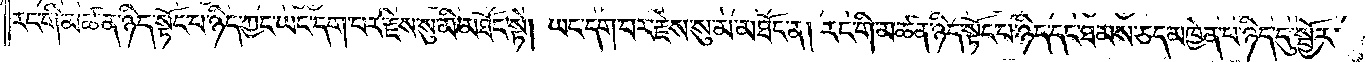རང་གི་མཚན་ཉིད་སྟོང་པ་ཉིད་ཀྱང་ཡང་དག་པར་རྗེས་སུ་མི་མཐོང་སྟེ། ཡང་དག་པར་རྗེས་སུ་མ་མཐོང་ན། རང་གི་མཚན་ཉིད་སྟོང་པ་ཉིད་དང་ཐམས་ཅད་མཁྱེན་པ་ཉིད་དུ་སྦྱོར་
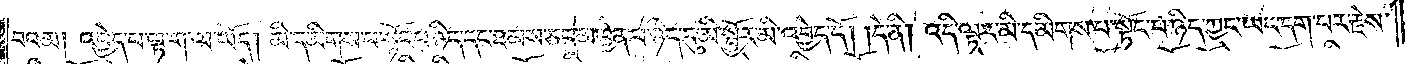བའམ། འབྱེད་པ་ལྟ་ག་ལ་ཡོད། མི་དམིགས་པ་སྟོང་པ་ཉིད་དང་ཐམས་ཅད་མཁྱེན་པ་ཉིད་དུ་མི་སྦྱོར་མི་འབྱེད་དོ། །དེ་ནི། འདི་ལྟར་མི་དམིགས་པ་སྟོང་པ་ཉིད་ཀྱང་ཡང་དག་པར་རྗེས་
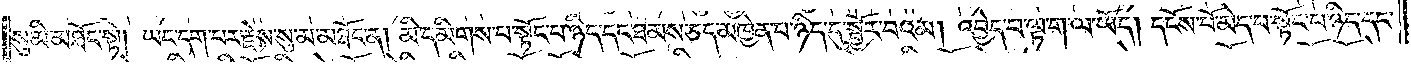སུ་མི་མཐོང་སྟེ། ཡང་དག་པར་རྗེས་སུ་མ་མཐོང་ན། མི་དམིགས་པ་སྟོང་པ་ཉིད་དང་ཐམས་ཅད་མཁྱེན་པ་ཉིད་དུ་སྦྱོར་བའམ། འབྱེད་པ་ལྟ་ག་ལ་ཡོད། དངོས་པོ་མེད་པ་སྟོང་པ་ཉིད་དང་
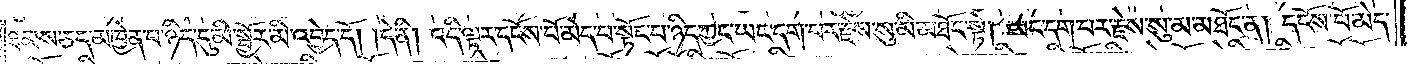ཐམས་ཅད་མཁྱེན་པ་ཉིད་དུ་མི་སྦྱོར་མི་འབྱེད་དོ། །དེ་ནི། འདི་ལྟར་དངོས་པོ་མེད་པ་སྟོང་པ་ཉིད་ཀྱང་ཡང་དག་པར་རྗེས་སུ་མི་མཐོང་སྟེ། ཡང་དག་པར་རྗེས་སུ་མ་མཐོང་ན། དངོས་པོ་མེད་
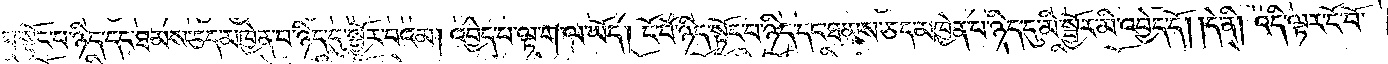པ་སྟོང་པ་ཉིད་དང་ཐམས་ཅད་མཁྱེན་པ་ཉིད་དུ་སྦྱོར་བའམ། འབྱེད་པ་ལྟ་ག་ལ་ཡོད། ངོ་བོ་ཉིད་སྟོང་པ་ཉིད་དང་ཐམས་ཅད་མཁྱེན་པ་ཉིད་དུ་མི་སྦྱོར་མི་འབྱེད་དོ། །དེ་ནི། འདི་ལྟར་ངོ་བོ་
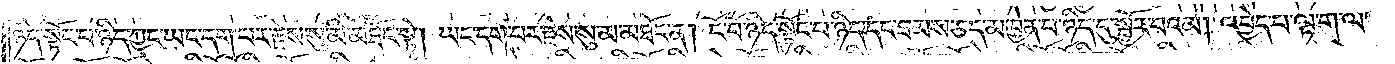ཉིད་སྟོང་པ་ཉིད་ཀྱང་ཡང་དག་པར་རྗེས་སུ་མི་མཐོང་སྟེ། ཡང་དག་པར་རྗེས་སུ་མ་མཐོང་ན། ངོ་བོ་ཉིད་སྟོང་པ་ཉིད་དང་ཐམས་ཅད་མཁྱེན་པ་ཉིད་དུ་སྦྱོར་བའམ། འབྱེད་པ་ལྟ་ག་ལ་
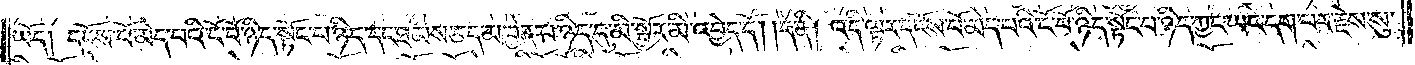ཡོད། དངོས་པོ་མེད་པའི་ངོ་བོ་ཉིད་སྟོང་པ་ཉིད་དང་ཐམས་ཅད་མཁྱེན་པ་ཉིད་དུ་མི་སྦྱོར་མི་འབྱེད་དོ། །དེ་ནི། འདི་ལྟར་དངོས་པོ་མེད་པའི་ངོ་བོ་ཉིད་སྟོང་པ་ཉིད་ཀྱང་ཡང་དག་པར་རྗེས་སུ་
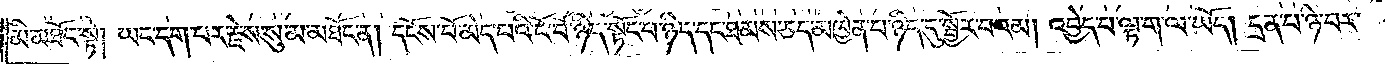མི་མཐོང་ན། ཡང་དག་པ་རྗེས་སུ་མ་མཐོང་ན། དངོས་པོ་མེད་པའི་ངོ་བོ་ཉིད་སྟོང་པ་ཉིད་དང་ཐམས་ཅད་མཁྱེན་པ་ཉིད་དུ་སྦྱོར་བའམ། འབྱེད་པ་ལྟ་ག་ལ་ཡོད། དྲན་པ་ཉེ་བར་
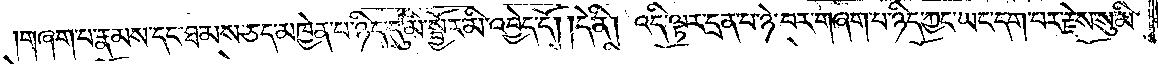གཞག་པ་རྣམས་དང་ཐམས་ཅད་མཁྱེན་པ་ཉིད་དུ་མི་སྦྱོར་མི་འབྱེད་དོ། །དེ་ནི། འདི་ལྟར་དྲན་པ་ཉེ་བར་གཞག་པ་ཉིད་ཀྱང་ཡང་དག་པར་རྗེས་སུ་མི་
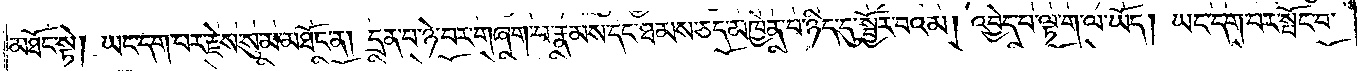མཐོང་སྟེ། ཡང་དག་པར་རྗེས་སུ་མ་མཐོང་ན། དྲན་པ་ཉེ་བར་གཞག་པ་རྣམས་དང་ཐམས་ཅད་མཁྱེན་པ་ཉིད་དུ་སྦྱོར་བའམ། འབྱེད་པ་ལྟ་ག་ལ་ཡོད། ཡང་དག་པར་སྤོང་བ་
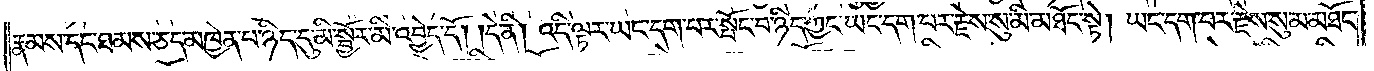རྣམས་དང་ཐམས་ཅད་མཁྱེན་པ་ཉིད་དུ་མི་སྦྱོར་མི་འབྱེད་དོ། །དེ་ནི། འདི་ལྟར་ཡང་དག་པར་སྤོང་བ་ཉིད་ཀྱང་ཡང་དག་པར་རྗེས་སུ་མི་མཐོང་སྟེ། ཡང་དག་པར་རྗེས་སུ་མ་མཐོང་
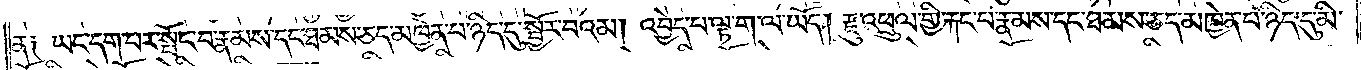ན༑ ཡང་དག་པར་སྤོང་བ་རྣམས་དང་ཐམས་ཅད་མཁྱེན་པ་ཉིད་དུ་སྦྱོར་བའམ། འབྱེད་པ་ལྟ་ག་ལ་ཡོད། རྫུ་འཕྲུལ་གྱི་རྐང་པ་རྣམས་དང་ཐམས་ཅད་མཁྱེན་པ་ཉིད་དུ་མི་
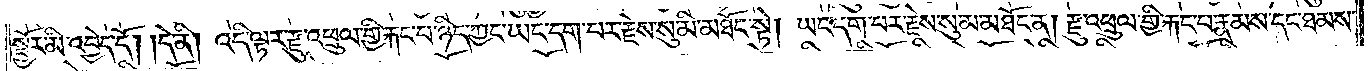སྦྱོར་མི་འབྱེད་དོ། །དེ་ནི། འདི་ལྟར་རྫུ་འཕྲུལ་གྱི་རྐང་པ་ཉིད་ཀྱང་ཡང་དག་པར་རྗེས་སུ་མི་མཐོང་སྟེ། ཡང་དག་པར་རྗེས་སུ་མ་མཐོང་ན། རྫུ་འཕྲུལ་གྱི་རྐང་པ་རྣམས་དང་ཐམས་
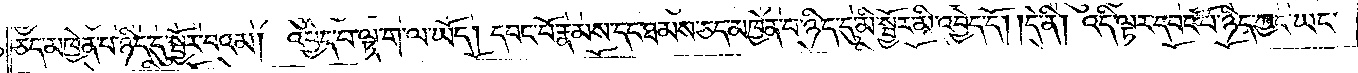ཅད་མཁྱེན་པ་ཉིད་དུ་སྦྱོར་བའམ། འབྱེད་པ་ལྟ་ག་ལ་ཡོད། དབང་པོ་རྣམས་དང་ཐམས་ཅད་མཁྱེན་པ་ཉིད་དུ་མི་སྦྱོར་མི་འབྱེད་དོ། །དེ་ནི། འདི་ལྟར་དབང་པོ་ཉིད་ཀྱང་ཡང་
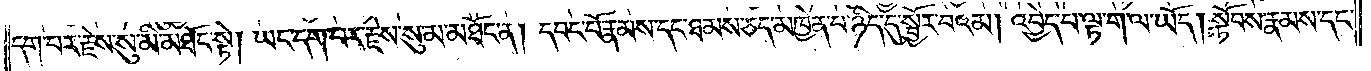དག་པར་རྗེས་སུ་མི་མཐོང་སྟེ། ཡང་དག་པར་རྗེས་སུ་མ་མཐོང་ན། དབང་པོ་རྣམས་དང་ཐམས་ཅད་མཁྱེན་པ་ཉིད་དུ་སྦྱོར་བའམ། འབྱེད་པ་ལྟ་ག་ལ་ཡོད། སྟོབས་རྣམས་དང་
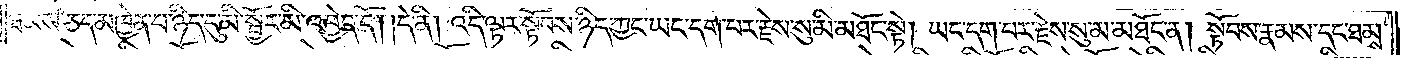ཐམས་ཅད་མཁྱེན་པ་ཉིད་དུ་མི་སྦྱོར་མི་འབྱེད་དོ། །དེ་ནི། འདི་ལྟར་སྟོབས་ཉིད་ཀྱང་ཡང་དག་པར་རྗེས་སུ་མི་མཐོང་སྟེ། ཡང་དག་པར་རྗེས་སུ་མ་མཐོང་ན། སྟོབས་རྣམས་དང་ཐམས་
